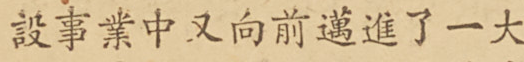設事業上又向前邁進了一大
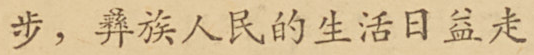步，彝族人民的生活日益走
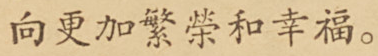向更加繁榮和幸福。
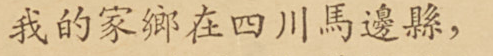我的家鄉在四川馬邊縣，
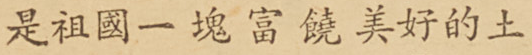是祖國一塊富饒美好的土
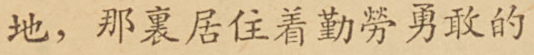地，那裏居住着勤勞勇敢的
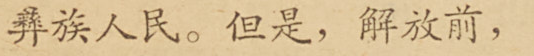彝族人民。但是，解放前，
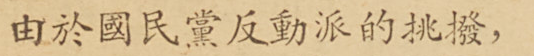由於國民黨反動派的挑撥，
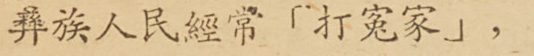彝族人民經常「打冤家」，
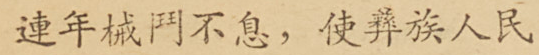連年械鬥不息，使彝族人民
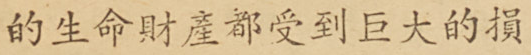的生命財產都受到巨大的損
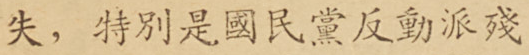失，特別是國民黨反動派殘
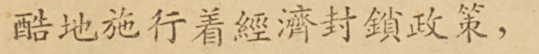酷地施行着經濟封鎖政策，
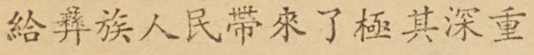給彝族人民帶來了極其深重
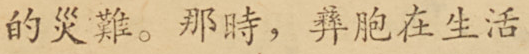的災難。那時，彝胞在生活
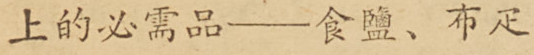上的必需品——食鹽、布疋
